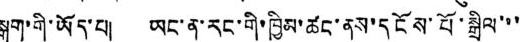སྒུག་གི་ཡོད་པ། ཡང་ན་རང་གི་ཁྱིམ་ཚང་ནས་དངོས་པོ་སྒྲིལ་་་
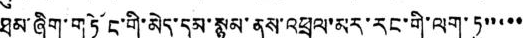ཐུབ་ཞིག་གཏོང་གི་མེད་དམ་སྙམ་ནས་འཕྲལ་མར་རང་གི་ལག་ཏུ་་་་་
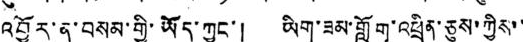འབྱོར་ན་བསམ་གྱི་ཡོད་ཀྱང་། ཡིག་ཟམ་གློག་འཕྲིན་ཅུས་ཀྱིས་་
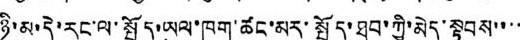ཉི་མ་དེ་རང་ལ་སྤྲོད་ཡུལ་ཁག་ཚང་མར་སྤྲོད་ཐུབ་ཀྱི་མེད་སྟབས་་་་
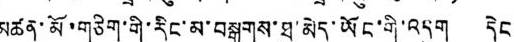མཚན་མོ་གཅིག་གི་རིང་མ་བསྒུགས་ཐུ་མེད་ཡོང་གི་འདུག དེང་
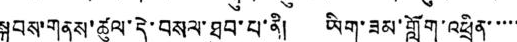སྐབས་གནས་ཚུལ་དེ་བསལ་ཐུབ་པ་ནི། ཡིག་ཟམ་གློག་འཕྲིན་་་་་
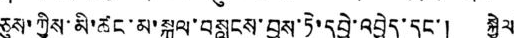ཅུས་ཀྱིས་མི་ཚང་མ་སྐུལ་བསླངས་བྱས་ཏེ་དབྱེ་འབྱེད་དང་། སྐྱེལ་
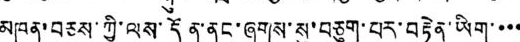མཁན་བཅས་ཀྱི་ལས་དོན་ནང་ཞུགས་སུ་བཅུག་པར་བརྟེན་ཡིག་་་་
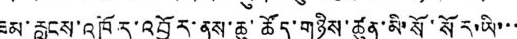ཟམ་རླངས་འཁོར་འབྱོར་ནས་ཆུ་ཚོད་གཉིས་ཚུན་མི་སོ་སོར་ཡི་་་
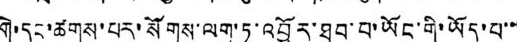གེ་དང་ཚགས་པར་སོགས་ལག་ཏུ་འབྱོར་ཐུབ་པ་ཡོང་གི་ཡོད་པ་་་
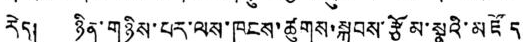རེད། ཉིན་གཉིས་པར་ལས་ཁུངས་ཚུགས་སྐབས་རྩོམ་སྣའི་མཛོད་
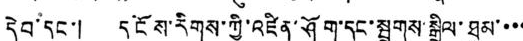དེབ་དང་། དངོས་རིགས་ཀྱི་འཛིན་ཤོག་དང་སྦྲགས་སྒྲིལ་ཐུམ་་་་
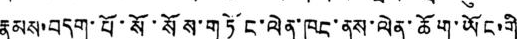རྣམས་བདག་པོ་སོ་སོས་གཏོང་ལེན་ཁང་ནས་ལེན་ཆོག་ཡོང་གི་
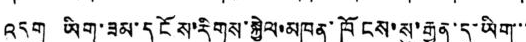འདུག ཡིག་ཟམ་དངོས་རིགས་སྐྱེལ་མཁན་ཁོངས་སུ་རྒྱུན་དུ་ཡིག་་་
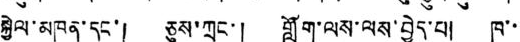སྐྱེལ་མཁན་དང་། ཅུས་ཀྲང་། གློག་ལས་ལས་བྱེད་པ། ཁ་་་
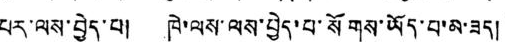པར་ལས་བྱེད་པ། ཁེ་ལས་ལས་བྱེད་པ་སོགས་ཡོད་པ་མ་ཟད།
